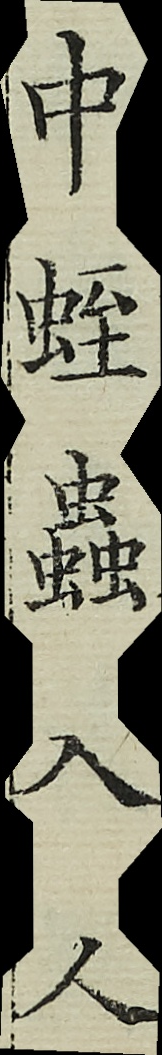中蛭蟲入人
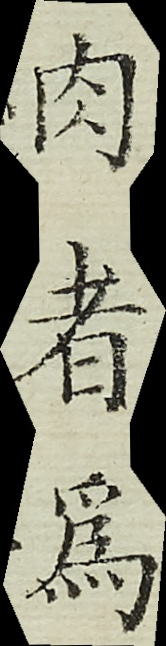肉者為
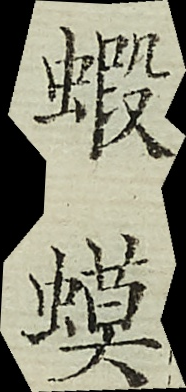蝦蟆
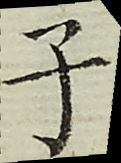子
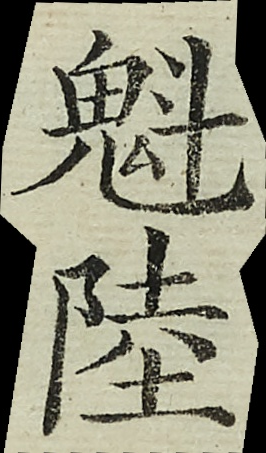魁陸
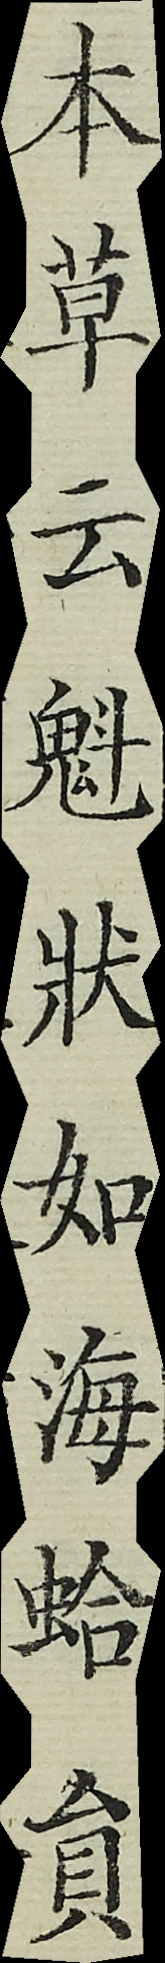本草云魁狀如海蛤圓
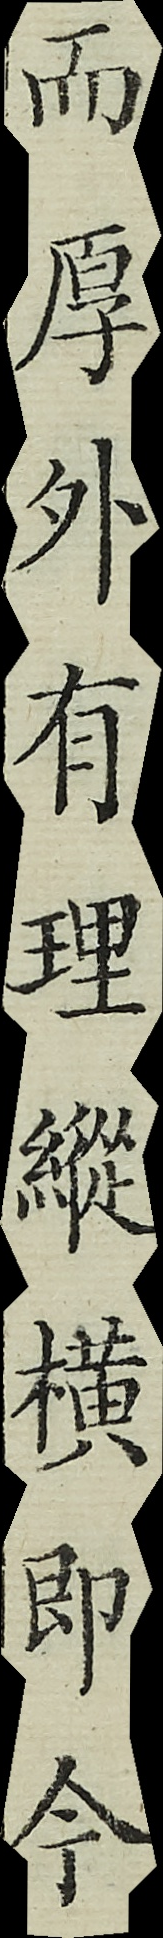而厚外有理縱橫即今
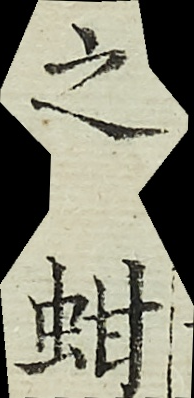之蚶
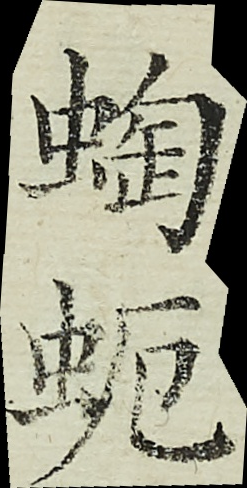蜪蚅
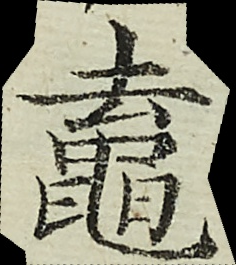鼁
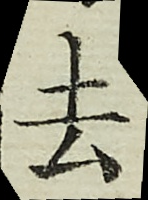去
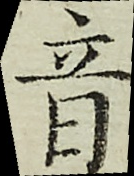音
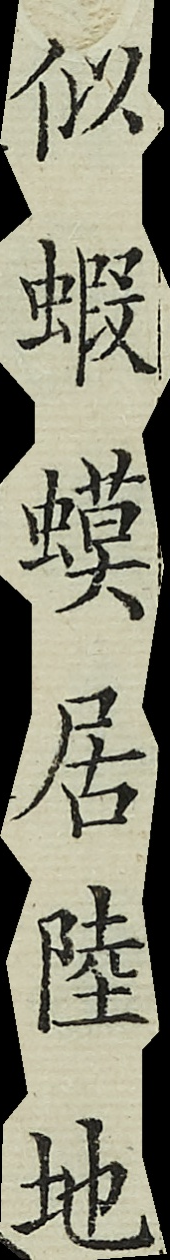似蝦蟆居陸地
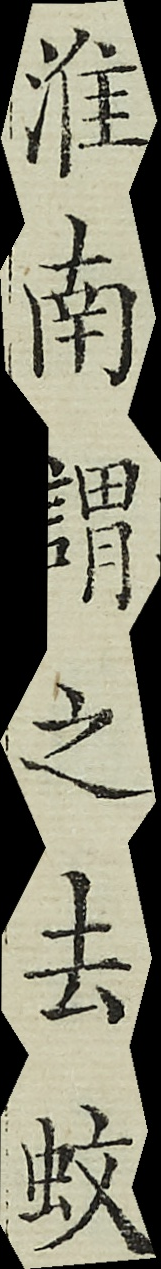淮南謂之去蚥
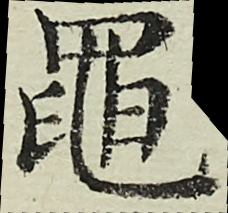黽
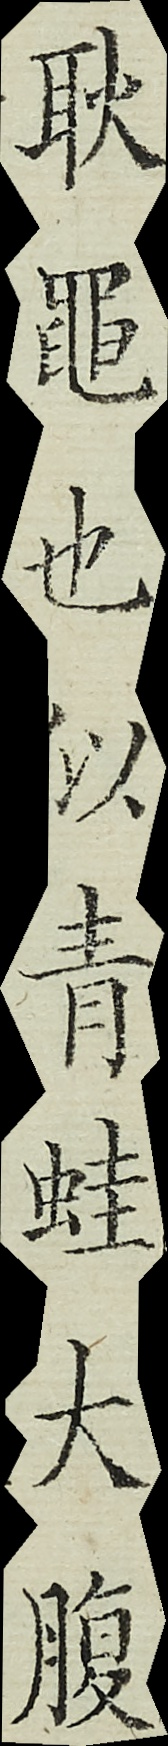耿黽也似青蛙大腹
